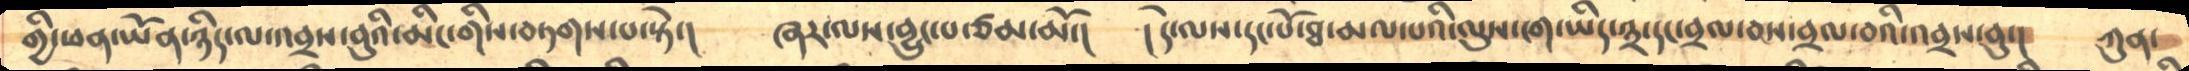གྱི་ཕན་ཡོན་ཉིད་ལ་འབྲས་བུའི་མིང་གིས་བཏགས་པ་སྟེ་།   ཞར་ལས་བྱུང་པ་ཙམ་མོ་།   །དེ་ལས་དང་༷པོ་ཐ་མལ་པའི་ལུས་ངག་ཡིད་༣་དང་བྲལ་བས་བྲལ་བའི་འབྲས་བུ་།   ཀུན་
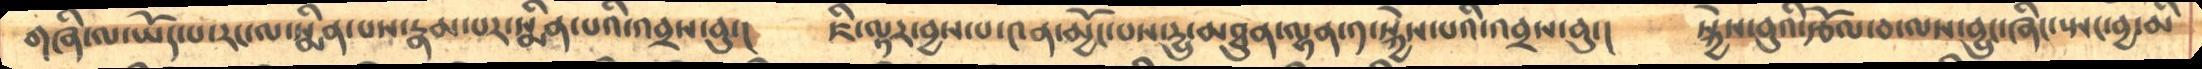གཞི་ལ་ཡོད་པ་རང་ལ་སྨིན་པས་རྣམ་པར་སྨིན་པའི་འབྲས་བུ་།    ཇི་ལྟར་བྱས་པ་༤ན་མྱོང་པས་དྱུ་མཐུན་ལྷན་༡་སྐྱེས་པའི་འབྲས་བུ་།    སྐྱེས་བུའི་རྩོལ་བ་ལས་བྱུང་ཞིང་སྤང་བྱ་མི
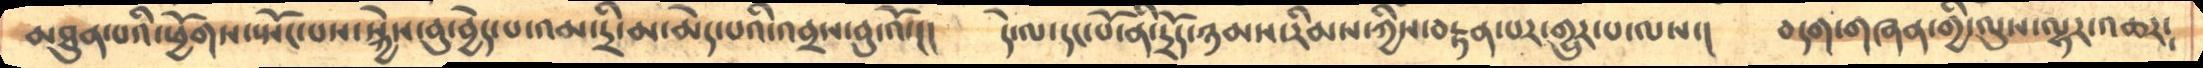མཐུན་པའི་ཕྱོགས་སྤོང་པས་སྐྱེས་བུ་བྱེད་པ་འམ་དྲི་མ་མེད་པའི་འབྲས་བུ་འོ་།།    དེ་ལ་དང་པོ་ནི་ཉམས་རིམས་ཀྱིས་བརྟན་པར་གྱུར་པ་ལས་།   བདག་གཞན་གྱི་ལུས་ལྷར་འཆར༴
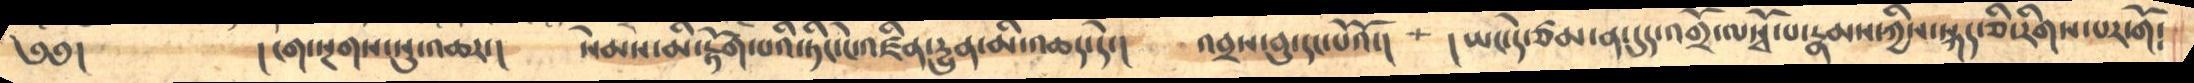༄༅།          །ངག་སྔགས་སུ་འཆར་།     སེམས་མི་རྟོག་པའི་ཏིང་ངེ་འཛིན་དྱུན་མི་འཆད་དེ་།    འབྲས་བུ་དང་པོའོ་     །ཡང་དེ་ཙམ་ན་དུད་འགྲོ་ལསྭོ་པ་རྣམས་ཀྱིས་སྐད་ཅི་རིགས་པར་གོ༴
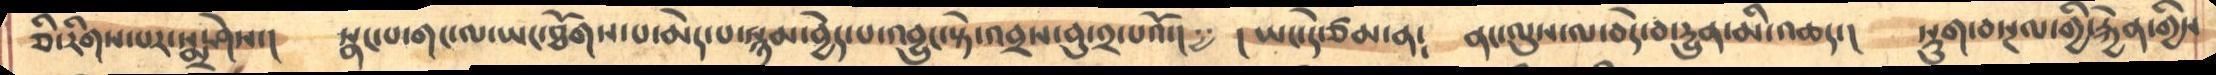ཅི་རིགས་པར་སྨྲ་ཤེས་།     སྣང་པ་གང་ལ་ཡང་ཐོགས་པ་མེད་པ་སྙམ་བྱེད་པ་འབྱུང་སྟེ་འབྲས་བུ་༢་པའོ་།    །ཡང་དེ་ཙམ་ན༴   ནང་ལུས་ལ་བདེ་བ་དྱུན་མི་འཆད་།    སྡུག་བསྔལ་གྱི་རྐྱེན་གྱིས
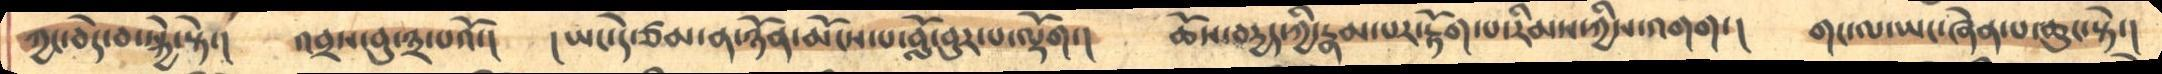ཀྱང་བདེ་བ་སྐྱེ་སྟེ་།    འབྲས་བུ་༣་པའོ་།    །ཡང་དེ་ཙམ་ན་ཉོན་མོངས་པ་བློ་བུར་པ་ལྡོག་།    ཆོས་བདྱད་ཀྱི་རྣམ་པར་རྟོག་པ་རིམས་ཀྱིས་འགག་།   གང་ལ་ཡང་ཞེན་པ་ཆུང་སྟེ་།
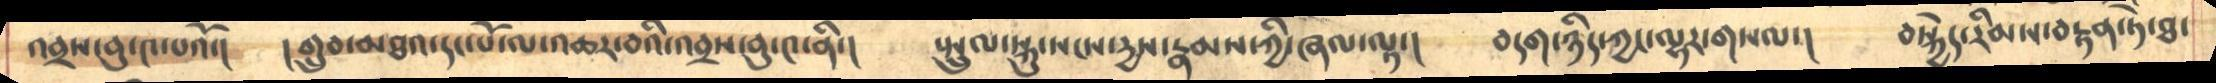འབྲས་བུ་༤་པའོ་།     །གྲུབ་མཐའ་དང་པོ་ལ་འཆར་བའི་འབྲས་བུ་༤་ནི་།   སྤྲུལ་སྐུ་སངས་དྱས་རྣམས་ཀྱི་ཞལ་ལྟ་།   བདག་ཉིད་ཀྱང་ལྷར་གསལ་།   བསྐྱེད་རིམས་བརྟན་ཏེ་ཐ་
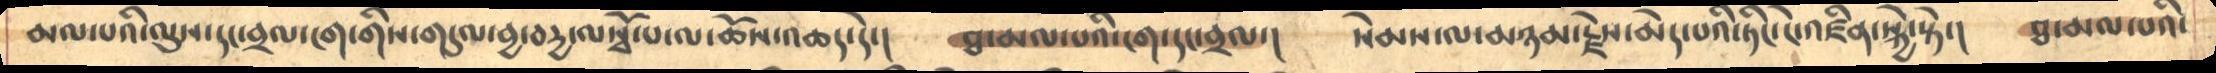མལ་པའི་ལུས་དང་བྲལ་ངག་གིས་གདུལ་བྱ་བདྱ་ལསྭོ་པ་ལ་ཆོས་འཆད་དེ་།     ཐ་མལ་པའི་ངག་དང་བྲལ་།   སེམས་ལ་མཉམ་རྗེས་མེད་པའི་ཏིང་ངེ་འཛིན་སྐྱེ་སྟེ་།     ཐ་མལ་པའི་
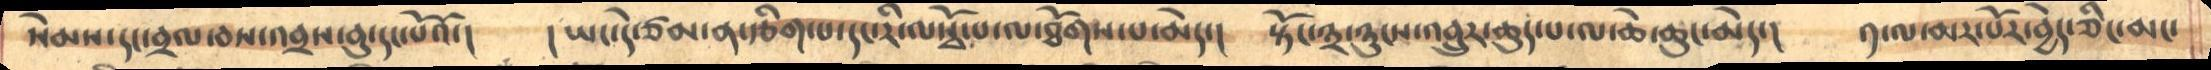སེམས་དང་བྲལ་བས་འབྲས་བུ་དང་པོའོ་།     །ཡང་དེ་ཙམ་ན་རྩིག་པ་དང་རི་ལསྭོ་པ་ལ་ཐོགས་པ་མེད་།     སྟོང་༣་ཉུངས་འབྲུར་ཆུད་པ་ལ་ཆེ་ཆུང་མེད་།    ༡་ལ་མར་པོར་བྱེད་ཅིང་མང་
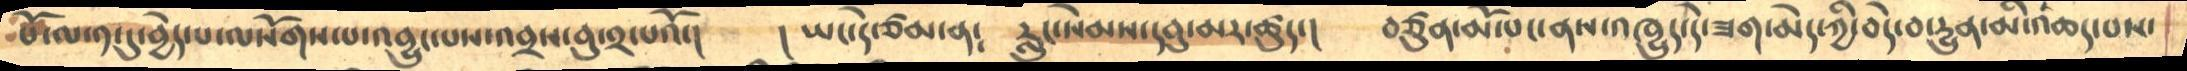པོ་ལ་༡་དུ་བྱེད་པ་ལསོགས་པ་འབྱུང་པས་འབྲས་བུ་༢་པའོ་།    ། ཡང་དེ་ཙམ་ན༴  རླུང་སེམས་དབུ་མར་ཚུད་།   བཙུན་མོ་པང་ནས་འཁྱུད་དེ་ཟག་མེད་ཀྱི་བདེ་བ་དྱུན་མི་འཆད་པས་
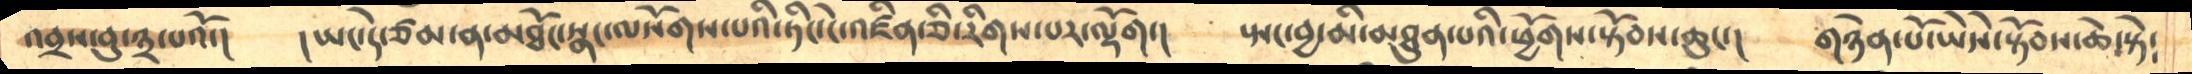འབྲས་བུ་༣་པའོ་།     །ཡང་དེ་ཙམ་ན་མཐོང་སྣང་ལསོགས་པའི་ཏིང་ངེ་འཛིན་ཅི་རིགས་པར་ལྡོག་།    སྤང་བྱ་མི་མཐུན་པའི་ཕྱོགས་སྟོབས་ཆུང་།   གཉེན་པོ་ཡཻས་སྟོབས་ཆེ་སྟེ༴
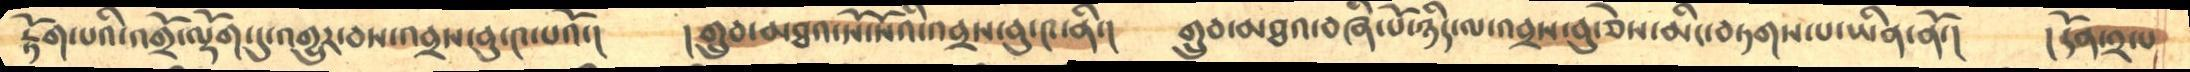རྟོག་པའི་འགྲོ་ལྡོག་དུ་འགྱུར་བས་འབྲས་བུ་༤་པའོ་།   །གྲུབ་མཐའ་སོ་སོའི་འབྲས་བུ་༤་ནི་།   གྲུབ་མཐའ་བཞི་པོ་ཉིད་ལ་འབྲས་བུ་ཅེས་མིང་བཏགས་པ་ཡིན་ནོ་།    །དོན་༢་པ
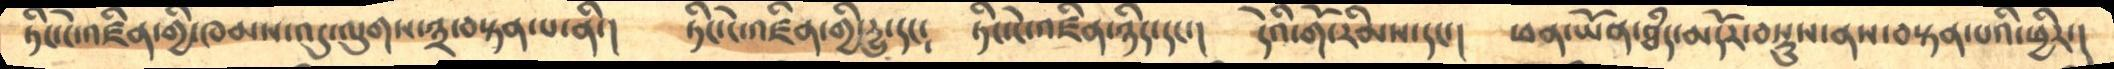ཏིང་ངེ་འཛིན་གྱི་ཁམས་འདུ་ལུགས་༣་བསྟན་པ་ནི་།    ཏིང་ངེ་འཛིན་གྱི་དྱུ་དང་  ཏིང་ངེ་འཛིན་ཉིད་དང་།   དེའི་གོ་རིམས་དང་།   ཕན་ཡོན་ཐཾད་མདོར་བསྡུས་ནས་བསྟན་པའི་ཕྱིར་།
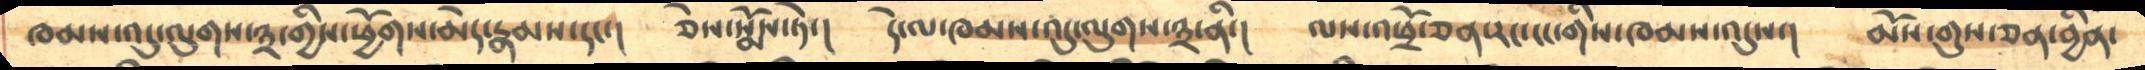ཁམས་འདུ་ལུགས་༣་གྱིས་ཕྱོགས་མེད་རྣམས་དང་།   ཅེས་སྨོས་ཏེ་།   དེ་ལ་ཁམས་འདུ་ལུགས་༣་ནི་།    ལས་འཕྲོ་ཅན་རང་ངང་གིས་ཁམས་འདུས་།    མོས་གུས་ཅན་བྱིན་
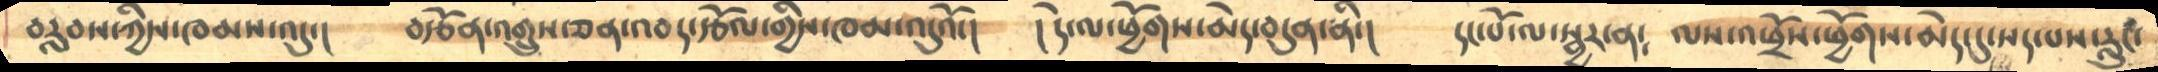བརླབས་ཀྱིས་ཁམས་འདུ་།    བརྩོན་འགྲུས་ཅན་འབད་རྩོལ་གྱིས་ཁམ་འདུའོ་།   །དེ་ལ་ཕྱོགས་མེད་བདུན་ནི་།   དང་པོ་ལ་སྦྱར་ན༴   ལས་འཕྲོས་ཕྱོགས་མེད་དུ་སད་པས་རླུང་
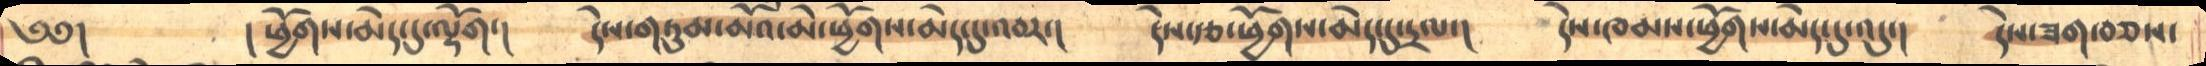༄༅།             །ཕྱོགས་མེད་དུ་ལྡོག་།       དེ་གཏུམ་མོའ་མེ་ཕྱོགས་མེད་དུ་འབར་།     དེས་རྩ་ཕྱོགས་མེད་དུ་དྲལ་།   དེས་ཁམས་ཕྱོགས་མེད་དུ་འདུ་།     དེས་ཟག་བཅས་
